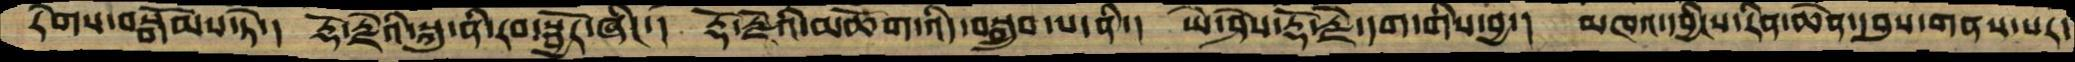རེགས་བསྒོམས་ཏེ་།  རྡོ་རྗེའི་སྐུ་ནི་རབ་སྦྱོར་ཞིང་།  རྡོ་རྗེའི་མཆོག་འདི་བསྒྲུབ་པ་ནི་།  ཡེ་ཤེས་རྡོ་རྗེ་དག་གིས་བྱྲ་།   མཁའ་དབྱིངས་རིན་ཆེན་དབུས་གནས་པར་
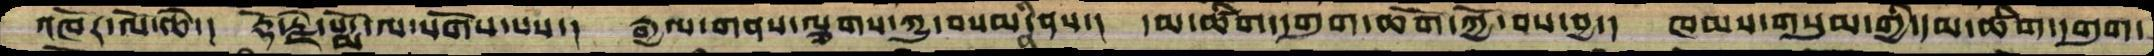འཁོར་ལོ་ཆེ་།  རྡོ་རྗེ་པདྨོ་ལ་སོགས་པས་།  རྒྱལ་གནས་ལྕགས་ཀྱུ་བསམ་ནི་ནས་། དམ་ཚིག་དགུག་ཆོག་ཀྱོ་བས་བྱ་། ཁམས་གསུམ་གྱི་དམ་ཚིག་དགུག་
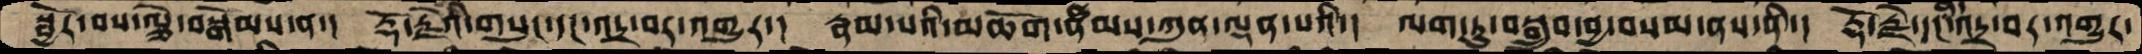སྦྱོར་བས་ལྕེ་བསྒོམས་ན་། རྡོ་རྗེའི་གསུང་དང་འདྲ་བར་འགྱུར་། རྣམ་པའི་མཆོག་རྣམས་ཀུན་ལྡན་པའི་། ལག་ཏུ་བསྒྲུབ་བྱ་བསམ་ནས་ནི་། རྡོ་རྗེ་དང་ནི་འདྲ་བར་འགྱུར་
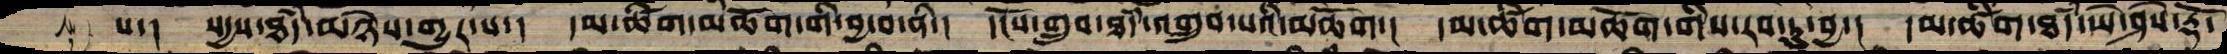པ་།  སདྱས་ཐཾད་མཉེས་གྱུར་པ་། དམ་ཚིག་མཆོག་གི་བྱ་བ་ནི་། དངོས་གྲུབ་ཐཾད་འགྲུབ་པའི་མཆོག་། དམ་ཚིག་མཆོག་གིས་རབ་ཏུ་བྱ་། དམ་ཚིག་ཐཾད་ཡེ་ཤེས་རྡོ་
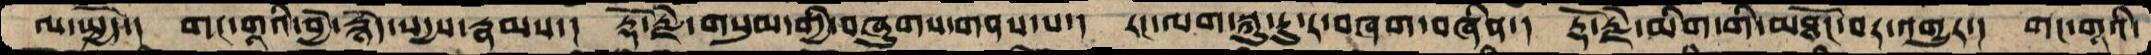ལ་སྤྱོད་།  གང་གཱའི་བྱེ་རྙེད་སདྱས་རྣམས་།  རྡོ་རྗེ་གསུམ་གྱི་བཞུགས་གནས་པ་།  རང་ལག་སྐྱུ་རུ་ར་བཞག་བཞིན་།  རྡོ་རྗེ་མིག་གི་མཐོང་བར་འགྱུར་།  གང་གཱའི་
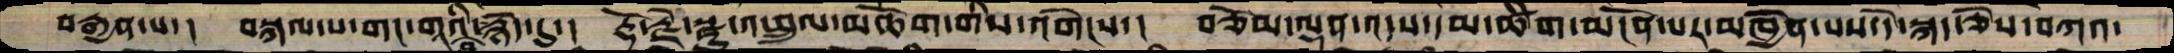བརྒྱན་པ་། བསྐལ་པ་གང་གཱའི་བྱེ་རྙེད་དུ་། རྡོ་རྗེ་སྫུ་འཕྲུལ་མཆོག་གིས་འགེངས་། བཅོམ་ལྡན་འདས་དམ་ཚིག་མངོན་པར་མཁྱེན་པས་དེ་སྐད་ཅེས་བཀའ་
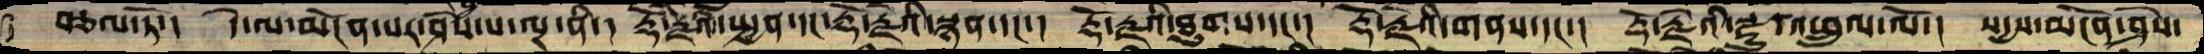བཅལ་ཏོ་། དེ་ལ་མངོན་པར་ཤེས་པ་ལྔ་ནི་། རྡོ་རྗེའི་སྤྱན་དང་རྡོ་རྗེའི་སྙན་དང་།  རྡོ་རྗེའི་ཐུགས་དང་། རྡོ་རྗེའི་གནས་དང་། རྡོ་རྗེའི་སྫུ་འཕྲུལ་ལོ་། སདྱས་མངོན་ཤེས་
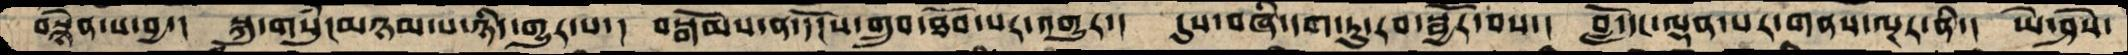བསྙེན་པ་བྱ་།  སྐུ་གསུཾ་མཉམ་པ་ཉིད་གྱུར་པ་།  བསྒོམས་ན་དངོས་གྲུབ་ཐོབ་པར་འགྱུར་།  དུས་བཞི་དག་ཏུ་རབ་སྦྱོར་བས་།  བློ་དང་ལྡན་པར་གནས་ལྔར་ནི་།  ཡེ་ཤེས་
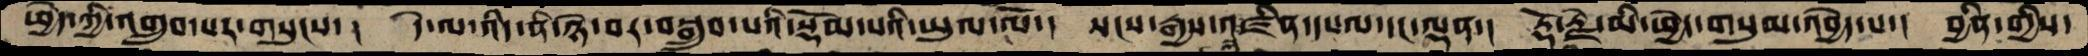ཕྱེད་ཀྱི་འགྲུབ་པར་གསུངས་།  དེ་ལ་འདི་ནི་ཉེ་བར་བསྒྲུབ་པའི་སྡོམ་པའི་ཡུལ་ལོ་།  སངས་རྒྱས་སྐུ་འཛིན་དཔལ་དང་ལྡན་། རྡོ་རྗེ་མི་ཕྱེད་གསུམ་འབྱེད་པ་། བྱིན་གྱིས་
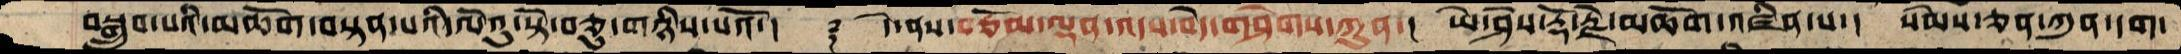བསྒྲུབ་པའི་མཆོག་བསྟན་པའི་ལེའུ་སྟེ་བཅུ་གཉིས་པའོ་།   ༈  དེ་ནས་བཅོམ་ལྡན་འདས་བདེ་གཤེགས་ཀུན་།  ཡེ་ཤེས་རྡོ་རྗེ་མཆོག་འཛིན་པ་།  སེམས་ཅནཀུན་དག་
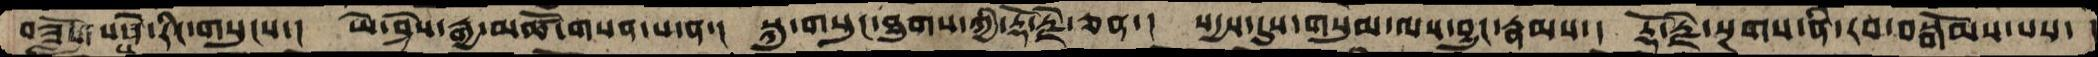བཟློག་པས་དེ་རིང་གསུངས་།  ཡེ་ཤེས་རྒྱ་མཚོ་གསན་པ་ན་། སྐུ་གསུང་ཐུགས་ཀྱི་རྡོ་རྗེ་ཅན་། སདྱས་དུས་གསུམ་ལས་བྱུང་རྣམས་། རྡོ་རྗེ་སྔགས་ནི་རབ་བསྒོམས་པས་
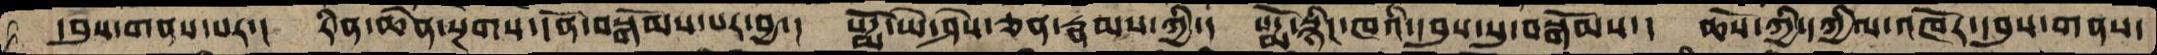དབུས་གནས་པར་།  རིན་ཆེན་སྔགས་དོན་བསྒོམས་པར་བྱ་།  པདྨོ་ཡེ་ཤེས་ཅན་རྣམས་ཀྱི་། པདྨོ་སྙིང་ཁའི་དབུས་སུ་བསྒོམས་། ཆོས་ཀྱི་དཀྱིལ་འཁོར་དབུས་གནས་
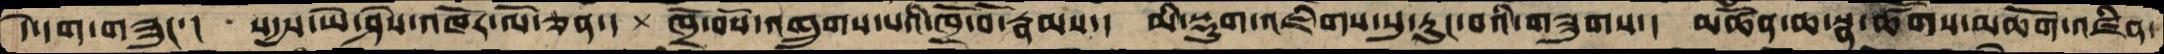དེ་དག་གཟུང་།  སདྱས་ཡེ་ཤེས་འཁོར་ལོ་ཅན་། ཁྲོ་བོས་འཁྲུགས་པའི་ཁྲོ་བོ་རྣམས་། མི་སྡུག་འཇིགས་སུ་རུང་བའི་གཟུགས་། མཚོན་ཆ་སྣ་ཚོགས་མཆོག་འཛིན་
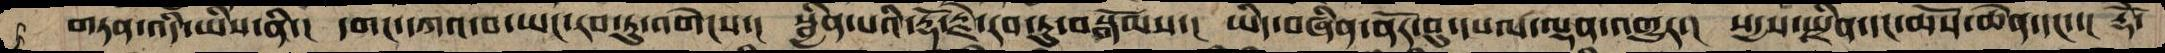གཏན་འདི་ཡིས་ནི་། དགང་དཀའ་བ་ཡང་རབ་ཏུ་འགེངས་། སྦྱིན་པའི་རྡོ་རྗེ་རབ་ཏུ་བསྒོམས་། ཡིད་བཞིན་ནོར་བུ་དཔལ་ལྡན་འགྱུར་། སདྱས་སྤྲིན་དང་ཆོས་ཆེན་དང་་། རྡོེ་
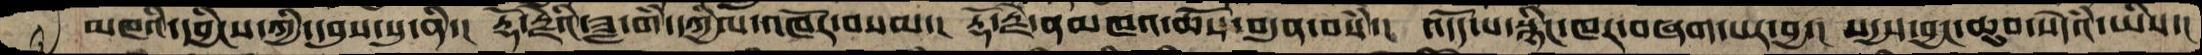མཁའི་དབྱིངས་ཀྱི་དབུས་སུ་ནི་། རྡོ་རྗེའི་ཟླ་གཾ་དཀྱིལ་འཁོར་བསམ་། རྡོ་རྗེ་ནམཁའ་ཆོས་བདུན་བསཾ་། འདོད་པ་སྙིང་ཁར་བཞག་པར་བྱ་། སདྱས་བྱང་ཆུབ་སེདཾའ་ཡིས་།
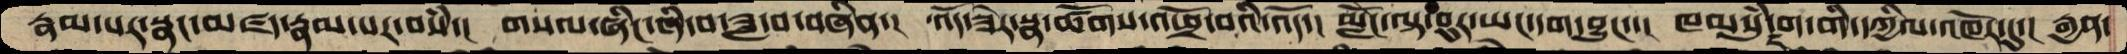རྣམ་པར་སྣང་མཛད་རྣམ་པར་བསཾ་། གསལ་ཞིང་ཞི་བ་ཟླ་བ་བཞིན་། འོད་ཟེར་སྣ་ཚོགས་འཕྲོ་བའི་འོད་། མླེོང་ལྟ་བུར་ཡང་དག་བྱུང་་། ཁམསུཾ་དག་གི་དཀྱིལ་འཁོར་དུ་། རྒྱན་
